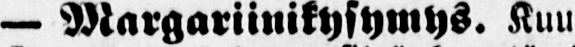— Margariinikysymys. Kuu-
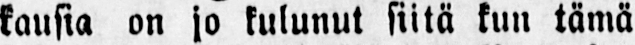kausia on jo kulunut siitä kun tämä
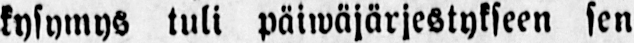kysymys tuli päiwäjärjestykseen sen
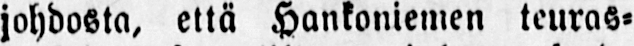johdosta, että Hankoniemen teuras-
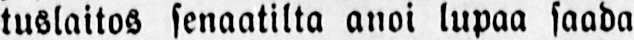tuslaitos senaatilta anoi lupaa saada
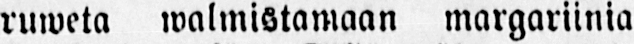ruweta walmistamaan margariinia
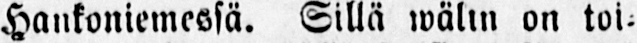Hankoniemessä. Sillä wälin on toi-
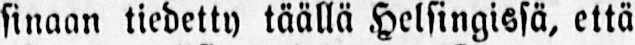sinaan tiedetty täällä Helsingissä, että
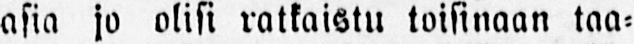asia jo olisi ratkaistu toisinaan taa-
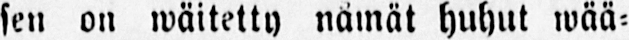sen on wäitetty nämät huhut wää-
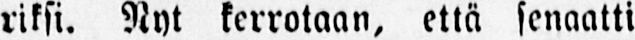riksi. Nyt kerrotaan, että senaatti
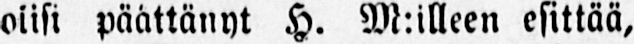oiisi päättänyt H. M:illeen esittää,
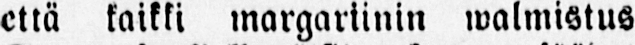että kaikki margariinin walmistus
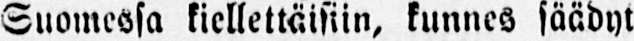Suomessa kiellettäisiin, kunnes säädyt
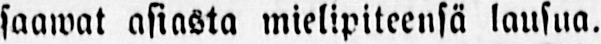saawat asiasta mielipiteensä lausua.
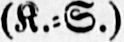(K.-S.)
